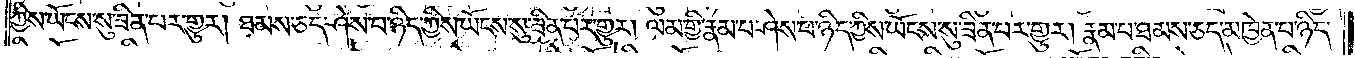ཀྱིས་ཡོངས་སུ་ཟིན་པར་གྱུར། ཐམས་ཅད་ཤེས་པ་ཉིད་ཀྱིས་ཡོངས་སུ་ཟིན་པར་གྱུར། ལམ་གྱི་རྣམ་པ་ཤེས་པ་ཉིད་ཀྱིས་ཡོངས་སུ་ཟིན་པར་གྱུར། རྣམ་པ་ཐམས་ཅད་མཁྱེན་པ་ཉིད་
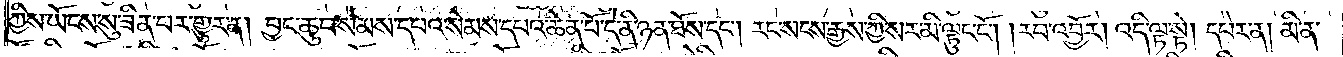ཀྱིས་ཡོངས་སུ་ཟིན་པར་གྱུར་ན། བྱང་ཆུབ་སེམས་དཔའ་སེམས་དཔའ་ཆེན་པོ་དེ་ནི་ཉན་ཐོས་དང༌། རང་སངས་རྒྱས་ཀྱི་སར་མི་ལྟུང་ངོ༌། །རབ་འབྱོར། འདི་ལྟ་སྟེ། དཔེར་ན། མི་ན་
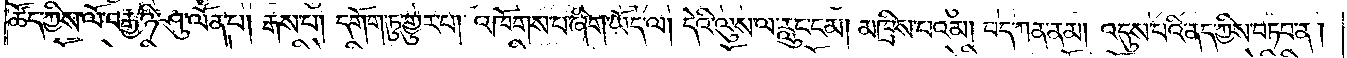ཚོད་ཀྱིས་ལོ་བརྒྱ་ཉི་ཤུ་ལོན་པ། རྒས་པ། དགོག་ཏུ་གྱུར་པ། འཁོགས་པ་ཞིག་ཡོད་ལ། དེའི་ལུས་ལ་རླུང་ངམ། མཁྲིས་པའམ། བད་ཀན་ནམ། འདུས་པའི་ནད་ཀྱིས་བཏབ་ན།
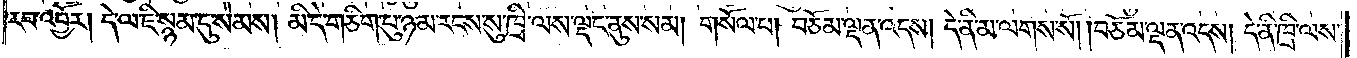རབ་འབྱོར། དེ་ལ་ཇི་སྙམ་དུ་སེམས། མི་དེ་གཅིག་པུ་ཉམ་རངས་སུ་ཁྲི་ལས་ལྡང་ནུས་སམ། གསོལ་པ། བཅོམ་ལྡན་འདས། དེ་ནི་མ་ལགས་སོ། །བཅོམ་ལྡན་འདས། དེ་ནི་ཁྲི་ལས་
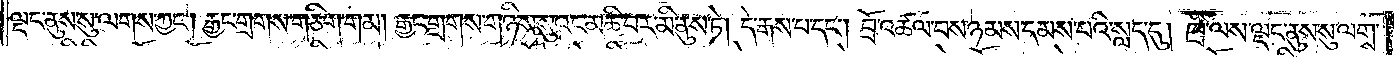ལྡང་ནུས་སུ་ལགས་ཀྱང༌། རྒྱང་གྲགས་གཅིག་གམ། རྒྱང་གྲགས་གཉིས་སུའང་མཆི་བར་མི་ནུས་ཏེ། དེ་རྒས་པ་དང༌། བྲོ་འཚལ་བས་ཉམས་དམས་པའི་སླད་དུ། ཁྲི་ལས་ལྡང་ནུས་སུ་ལགས་
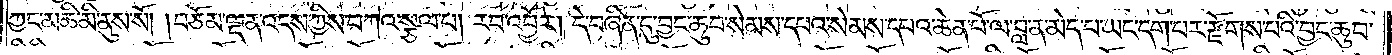ཀྱང་མཆི་མི་ནུས་སོ། །བཅོམ་ལྡན་འདས་ཀྱིས་བཀའ་སྩལ་པ། རབ་འབྱོར། དེ་བཞིན་དུ་བྱང་ཆུབ་སེམས་དཔའ་སེམས་དཔའ་ཆེན་པོ་ལ་བླ་ན་མེད་པ་ཡང་དག་པ་རྫོགས་པའི་བྱང་ཆུབ་
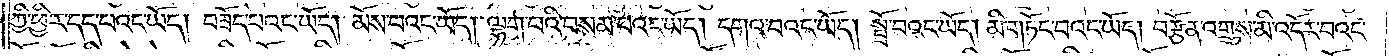ཀྱི་ཕྱིར་དད་པའང་ཡོད། བཟོད་པའང་ཡོད། མོས་པའང་ཡོད། ལྷག་པའི་བསམ་པའང་ཡོད། དགའ་བའང་ཡོད། སྤྲོ་བའང་ཡོད། མི་གཏོང་བའང་ཡོད། བརྩོན་འགྲུས་མི་འདོར་བའང་
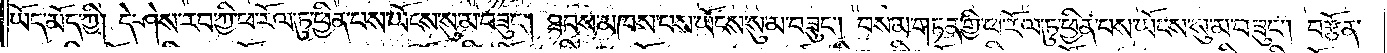ཡོད་མོད་ཀྱི། དེ་ཤེས་རབ་ཀྱི་ཕ་རོལ་ཏུ་ཕྱིན་པས་ཡོངས་སུ་མ་བཟུང༌། ཐབས་མཁས་པས་ཡོངས་སུ་མ་བཟུང༌། བསམ་གཏན་གྱི་ཕ་རོལ་ཏུ་ཕྱིན་པས་ཡོངས་སུ་མ་བཟུང༌། བརྩོན་
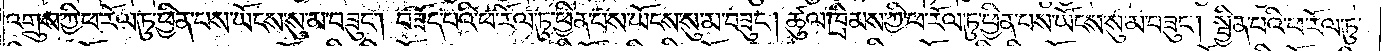འགྲུས་ཀྱི་ཕ་རོལ་ཏུ་ཕྱིན་པས་ཡོངས་སུ་མ་བཟུང༌། བཟོད་པའི་ཕ་རོལ་ཏུ་ཕྱིན་པས་ཡོངས་སུ་མ་བཟུང༌། ཚུལ་ཁྲིམས་ཀྱི་ཕ་རོལ་ཏུ་ཕྱིན་པས་ཡོངས་སུ་མ་བཟུང༌། སྦྱིན་པའི་ཕ་རོལ་ཏུ་
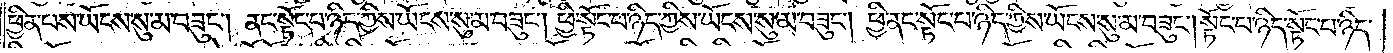ཕྱིན་པས་ཡོངས་སུ་མ་བཟུང༌། ནང་སྟོང་པ་ཉིད་ཀྱིས་ཡོངས་སུ་མ་བཟུང༌། ཕྱི་སྟོང་པ་ཉིད་ཀྱིས་ཡོངས་སུ་མ་བཟུང༌། ཕྱི་ནང་སྟོང་པ་ཉིད་ཀྱིས་ཡོངས་སུ་མ་བཟུང༌། སྟོང་པ་ཉིད་སྟོང་པ་ཉིད་
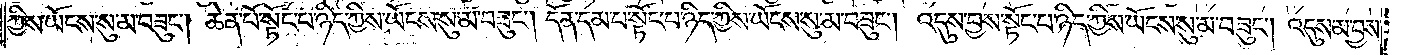ཀྱིས་ཡོངས་སུ་མ་བཟུང༌། ཆེན་པོ་སྟོང་པ་ཉིད་ཀྱིས་ཡོངས་སུ་མ་བཟུང༌། དོན་དམ་པ་སྟོང་པ་ཉིད་ཀྱིས་ཡོངས་སུ་མ་བཟུང༌། འདུས་བྱས་སྟོང་པ་ཉིད་ཀྱིས་ཡོངས་སུ་མ་བཟུང༌། འདུས་མ་བྱས་
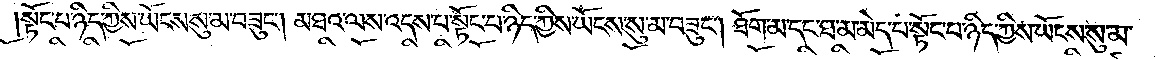སྟོང་པ་ཉིད་ཀྱིས་ཡོངས་སུ་མ་བཟུང༌། མཐའ་ལས་འདས་པ་སྟོང་པ་ཉིད་ཀྱིས་ཡོངས་སུ་མ་བཟུང༌། ཐོག་མ་དང་ཐ་མ་མེད་པ་སྟོང་པ་ཉིད་ཀྱིས་ཡོངས་སུ་མ་
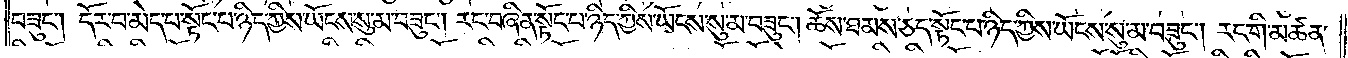བཟུང༌། དོར་བ་མེད་པ་སྟོང་པ་ཉིད་ཀྱིས་ཡོངས་སུ་མ་བཟུང༌། རང་བཞིན་སྟོང་པ་ཉིད་ཀྱིས་ཡོངས་སུ་མ་བཟུང༌། ཆོས་ཐམས་ཅད་སྟོང་པ་ཉིད་ཀྱིས་ཡོངས་སུ་མ་བཟུང༌། རང་གི་མཚན་
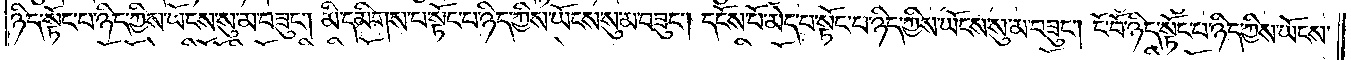ཉིད་སྟོང་པ་ཉིད་ཀྱིས་ཡོངས་སུ་མ་བཟུང༌། མི་དམིགས་པ་སྟོང་པ་ཉིད་ཀྱིས་ཡོངས་སུ་མ་བཟུང༌། དངོས་པོ་མེད་པ་སྟོང་པ་ཉིད་ཀྱིས་ཡོངས་སུ་མ་བཟུང༌། ངོ་བོ་ཉིད་སྟོང་པ་ཉིད་ཀྱིས་ཡོངས་
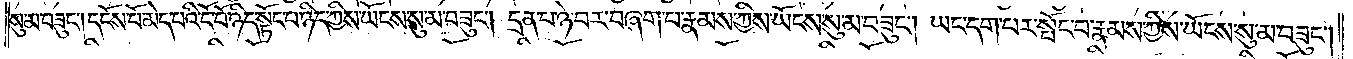སུ་མ་བཟུང༌། དངོས་པོ་མེད་པའི་ངོ་བོ་ཉིད་སྟོང་པ་ཉིད་ཀྱིས་ཡོངས་སུ་མ་བཟུང༌། དྲན་པ་ཉེ་བར་བཞག་པ་རྣམས་ཀྱིས་ཡོངས་སུ་མ་བཟུང༌། ཡང་དག་པར་སྤོང་བ་རྣམས་ཀྱིས་ཡོངས་སུ་མ་བཟུང༌།
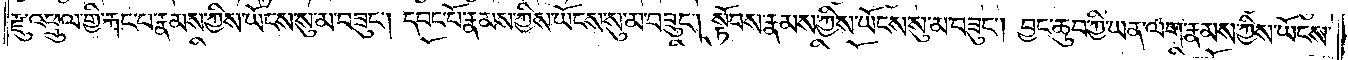རྫུ་འཕྲུལ་གྱིས་རྐང་པ་རྣམས་ཀྱིས་ཡོངས་སུ་མ་བཟུང༌། དབང་པོ་རྣམས་ཀྱིས་ཡོངས་སུ་མ་བཟུང༌། སྟོབས་རྣམས་ཀྱིས་ཡོངས་སུ་མ་བཟུང༌། བྱང་ཆུབ་ཀྱི་ཡན་ལག་རྣམས་ཀྱིས་ཡོངས་
